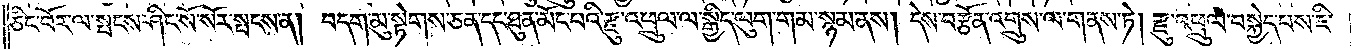ཅིང་བོར་ལ་སྤངས་ཤིང་སོ་སོར་སྤངས་ན། བདག་མུ་སྟེགས་ཅན་དང་ཐུན་མོང་བའི་རྫུ་འཕྲུལ་ལ་སྒྱིད་ལུག་གམ་སྙམ་ནས། དེས་བརྩོན་འགྲུས་ལ་གནས་ཏེ། རྫུ་འཕྲུལ་བསྐྱེད་པས་ཇི་
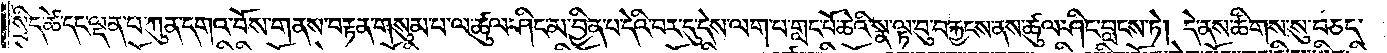སྲིད་ཚེ་དང་ལྡན་པ་ཀུན་དགའ་བོས་གནས་བརྟན་གསུམ་པ་ལ་ཚུལ་ཤིང་མ་བྱིན་པ་དེའི་བར་དུ་དེས་ལག་པ་གླང་པོ་ཆེའི་སྣ་ལྟ་བུ་བརྐྱངས་ནས་ཚུལ་ཤིང་བླངས་ཏེ། དེ་ནས་ཚིགས་སུ་བཅད་
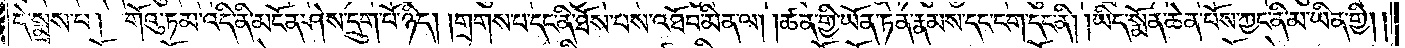དེ་སྨྲས་པ། གོའུ་ཏམ་འདི་ནི་མངོན་ཤེས་དྲུག་པོ་ཉིད། །གྲགས་པ་དང་ནི་ཐོས་པས་འཐོབ་མིན་ལ། །ཚན་གྱི་ཡོན་ཏན་རྣམས་དང་ངག་དང་ནི། །ཡིད་སྨོན་ཆེན་པོས་ཀྱང་ནི་མ་ཡིན་གྱི། །
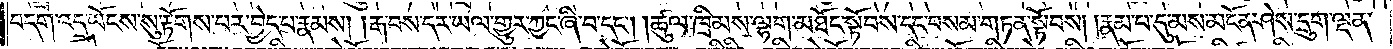བདག་འདྲ་ཡོངས་སུ་རྟོགས་པར་བྱེད་པ་རྣམས། །རྒ་བས་དར་ཡལ་གྱུར་ཀྱང་ཞི་བ་དང༌། །ཚུལ་ཁྲིམས་ལྷག་མཐོང་སྟོབས་དང་བསམ་གཏན་སྟོབས། །རྣམ་པ་དུ་མས་མངོན་ཤེས་དྲུག་ལྡན་
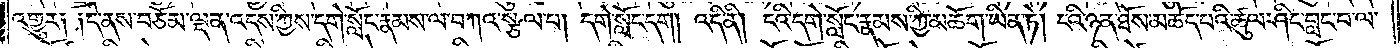འགྱུར༑ ༑དེ་ནས་བཅོམ་ལྡན་འདས་ཀྱིས་དགེ་སློང་རྣམས་ལ་བཀའ་སྩལ་པ། དགེ་སློང་དག། འདི་ནི། ངའི་དགེ་སློང་རྣམས་ཀྱི་མཆོག་ཡིན་ཏེ། ངའི་ཉན་ཐོས་མཆོད་པའི་ཚུལ་ཤིང་བླང་བ་ལ་
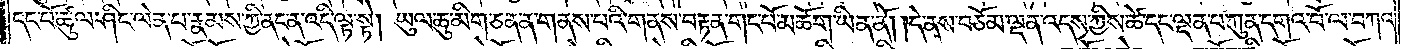དང་པོ་ཚུལ་ཤིང་ལེན་པ་རྣམས་ཀྱི་ནང་ན་འདི་ལྟ་སྟེ། ཡུལ་ཆུ་མིག་ཅན་ན་གནས་པའི་གནས་བརྟན་གང་པོ་མཆོག་ཡིན་ནོ། །དེ་ནས་བཅོམ་ལྡན་འདས་ཀྱིས་ཚེ་དང་ལྡན་པ་ཀུན་དགའ་བོ་ལ་བཀའ་
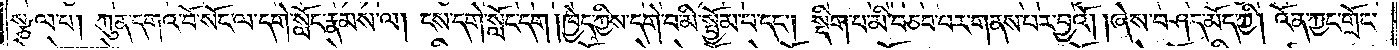སྩལ་པ། ཀུན་དགའ་བོ་སོང་ལ་དགེ་སློང་རྣམས་ལ། ངས་དགེ་སློང་དག །ཁྱེད་ཀྱིས་དགེ་བ་མི་སྤྱོམ་པ་དང༌། སྡིག་པ་མི་བཅབ་པར་གནས་པར་བྱའོ། །ཞེས་བཤད་མོད་ཀྱི། འོན་ཀྱང་གྲོང་
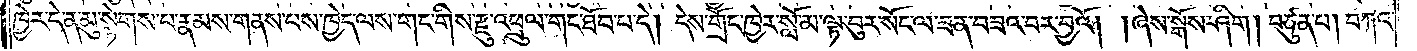ཁྱེར་དེ་ན་མུ་སྟེགས་པ་རྣམས་གནས་པས་ཁྱེད་ལས་གང་གིས་རྫུ་འཕྲུལ་གང་ཐོབ་པ་དེ། དེས་གྲོང་ཁྱེར་སློ་མ་ལྟ་བུར་སོང་ལ་ཟན་བཟའ་བར་བྱའོ། །ཞེས་སྒོས་ཤིག། བཙུན་པ། བཀའ་
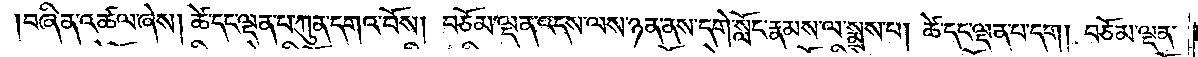བཞིན་འཚལ་ཞེས། ཚེ་དང་ལྡན་པ་ཀུན་དགའ་བོས། བཅོམ་ལྡན་འདས་ལས་ཉན་ནས་དགེ་སློང་རྣམས་ལ་སྨྲས་པ། ཚེ་དང་ལྡན་པ་དག། བཅོམ་ལྡན་
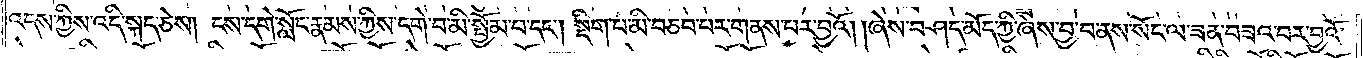འདས་ཀྱིས་འདི་སྐད་ཅེས། ངས་དགེ་སློང་རྣམས་ཀྱིས་དགེ་བ་མི་སྤྱོམ་པ་དང༌། སྡིག་པ་མི་བཅབ་པར་གནས་པར་བྱའོ། །ཞེས་བཤད་མོད་ཀྱི་ཞེས་བྱ་བ་ནས་སོང་ལ་ཟན་བཟའ་བར་བྱའོ་
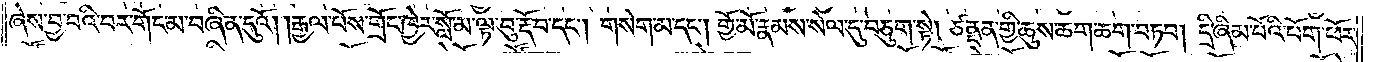ཞེས་བྱ་བའི་བར་གོང་མ་བཞིན་དུའོ། །རྒྱལ་པོས་གྲོང་ཁྱེར་སློ་མ་ལྟ་བུ་རྡོ་བ་དང༌། གསེག་མ་དང༌། གྱོ་མོ་རྣམས་སེལ་དུ་བཅུག་སྟེ། ཙནྡན་གྱི་ཆུས་ཆག་ཆག་བཏབ། དྲི་ཞིམ་པོའི་པོག་ཕོར་
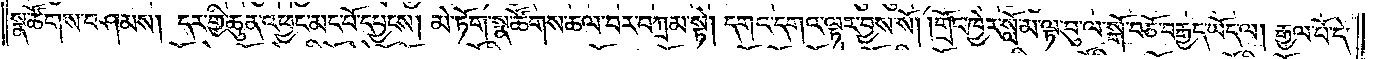སྣ་ཚོགས་བཤམས། དར་གྱི་ཆུན་འཕྱང་མང་པོ་དཔྱངས། མེ་ཏོག་སྣ་ཚོགས་ཆལ་བར་བཀྲམ་སྟེ། དགའ་དགའ་ལྟར་བྱས་སོ། །གྲོང་ཁྱེར་སློ་མ་ལྟ་བུ་ལ་སྒོ་བཅོ་བརྒྱད་ཡོད་ལ། རྒྱལ་པོ་དེ་
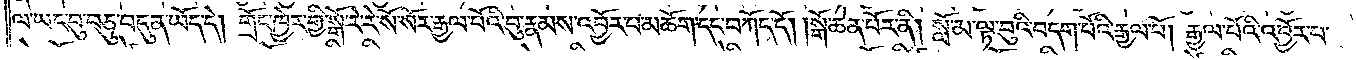ལ་ཡང་བུ་བཅུ་བདུན་ཡོད་དེ། གྲོང་ཁྱེར་གྱི་སྒོ་རེ་རེ་སོ་སོར་རྒྱལ་པོའི་བུ་རྣམས་འབྱོར་པ་མཆོག་དང་བཀོད་དོ། །སྒོ་ཆེན་པོར་ནི། སློ་མ་ལྟ་བུའི་བདག་པོའི་རྒྱལ་པོ། རྒྱལ་པོའི་འབྱོར་པ་
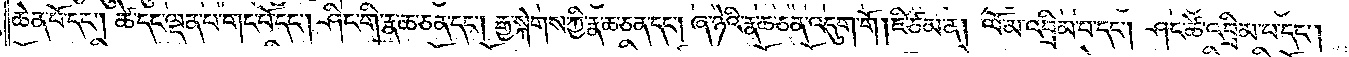ཆེན་པོ་དང༌། ཚེ་དང་ལྡན་པ་གང་པོ་དང༌། ཤིང་གི་རྣ་ཆ་ཅན་དང༌། རྒྱ་སྐེགས་ཀྱི་རྣ་ཆ་ཅན་དང༌། ཞ་ཉེའི་རྣ་ཆ་ཅན་འདུག་གོ །ཇི་ཙམ་ན། ལོ་མ་འབྲིམ་པ་དང༌། ཤང་ཚེ་འབྲིམ་པ་དང༌།
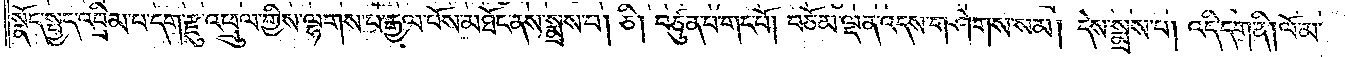སྣོད་སྤྱད་འབྲིམ་པ་དག་རྫུ་འཕྲུལ་གྱིས་ལྷགས་པ་རྒྱལ་པོས་མཐོང་ནས་སྨྲས་པ། ཅི། བཙུན་པ་གང་པོ། བཅོམ་ལྡན་འདས་གཤེགས་སམ། དེས་སྨྲས་པ། འདི་དག་ནི། ལོ་མ་
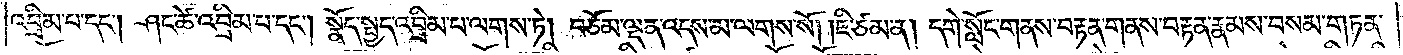འབྲིམ་པ་དང༌། ཤང་ཚེ་འབྲིམ་པ་དང༌། སྣོད་སྤྱད་འབྲིམ་པ་ལགས་ཏེ། བཅོམ་ལྡན་འདས་མ་ལགས་སོ། །ཇི་ཙམ་ན། དགེ་སློང་གནས་བརྟན་གནས་བརྟན་རྣམས་བསམ་གཏན་
